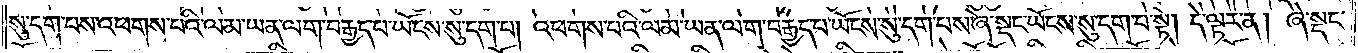སུ་དག་པས་འཕགས་པའི་ལམ་ཡན་ལག་བརྒྱད་པ་ཡོངས་སུ་དག་པ། འཕགས་པའི་ལམ་ཡན་ལག་བརྒྱད་པ་ཡོངས་སུ་དག་པས་ཞེ་སྡང་ཡོངས་སུ་དག་པ་སྟེ། དེ་ལྟར་ན། ཞེ་སྡང་
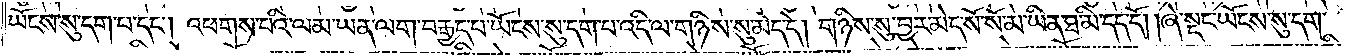ཡོངས་སུ་དག་པ་དང༌། འཕགས་པའི་ལམ་ཡན་ལག་བརྒྱད་པ་ཡོངས་སུ་དག་པ་འདི་ལ་གཉིས་སུ་མེད་དེ། གཉིས་སུ་བྱར་མེད་སོ་སོ་མ་ཡིན་ཐ་མི་དད་དོ། །ཞེ་སྡང་ཡོངས་སུ་དག་
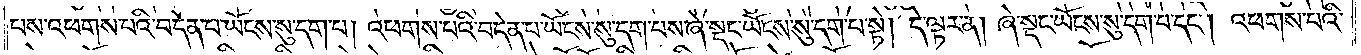པས་འཕགས་པའི་བདེན་པ་ཡོངས་སུ་དག་པ། འཕགས་པའི་བདེན་པ་ཡོངས་སུ་དག་པས་ཞེ་སྡང་ཡོངས་སུ་དག་པ་སྟེ། དེ་ལྟར་ན། ཞེ་སྡང་ཡོངས་སུ་དག་པ་དང༌། འཕགས་པའི་
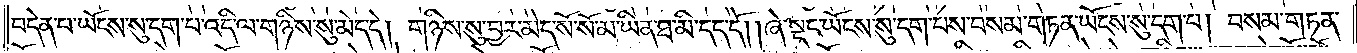བདེན་པ་ཡོངས་སུ་དག་པ་འདི་ལ་གཉིས་སུ་མེད་དེ། གཉིས་སུ་བྱར་མེད་སོ་སོ་མ་ཡིན་ཐ་མི་དད་དོ། །ཞེ་སྡང་ཡོངས་སུ་དག་པས་བསམ་གཏན་ཡོངས་སུ་དག་པ། བསམ་གཏན་
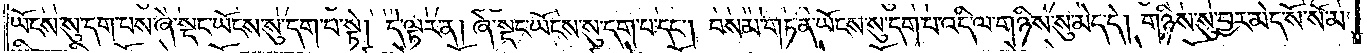ཡོངས་སུ་དག་པས་ཞེ་སྡང་ཡོངས་སུ་དག་པ་སྟེ། དེ་ལྟར་ན། ཞེ་སྡང་ཡོངས་སུ་དག་པ་དང༌། བསམ་གཏན་ཡོངས་སུ་དག་པ་འདི་ལ་གཉིས་སུ་མེད་དེ། གཉིས་སུ་བྱར་མེད་སོ་སོ་མ་
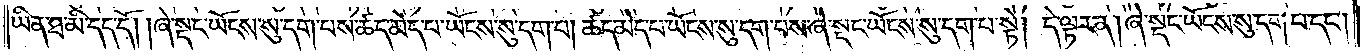ཡིན་ཐ་མི་དད་དོ། །ཞེ་སྡང་ཡོངས་སུ་དག་པས་ཚད་མེད་པ་ཡོངས་སུ་དག་པ། ཚད་མེད་པ་ཡོངས་སུ་དག་པས་ཞེ་སྡང་ཡོངས་སུ་དག་པ་སྟེ། དེ་ལྟར་ན། ཞེ་སྡང་ཡོངས་སུ་དག་པ་དང༌།
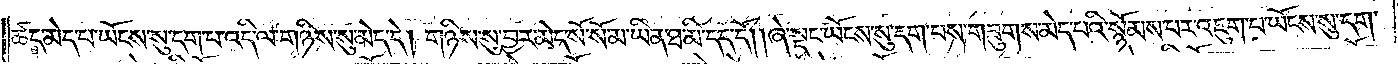ཚད་མེད་པ་ཡོངས་སུ་དག་པ་འདི་ལ་གཉིས་སུ་མེད་དེ། གཉིས་སུ་བྱར་མེད་སོ་སོ་མ་ཡིན་ཐ་མི་དད་དོ། །ཞེ་སྡང་ཡོངས་སུ་དག་པས་གཟུགས་མེད་པའི་སྙོམས་པར་འཇུག་པ་ཡོངས་སུ་དག་
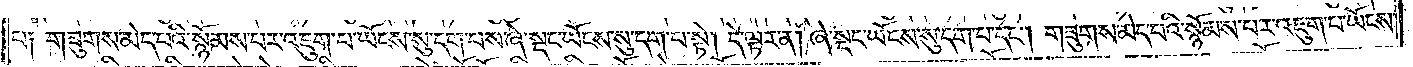པ༑ གཟུགས་མེད་པའི་སྙོམས་པར་འཇུག་པ་ཡོངས་སུ་དག་པས་ཞེ་སྡང་ཡོངས་སུ་དག་པ་སྟེ། དེ་ལྟར་ན། ཞེ་སྡང་ཡོངས་སུ་དག་པ་དང༌། གཟུགས་མེད་པའི་སྙོམས་པར་འཇུག་པ་ཡོངས་
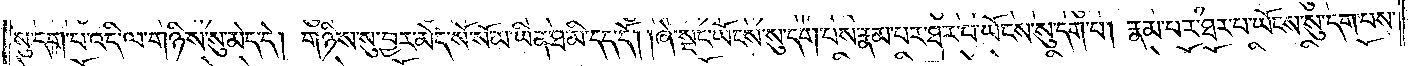སུ་དག་པ་འདི་ལ་གཉིས་སུ་མེད་དེ། གཉིས་སུ་བྱར་མེད་སོ་སོ་མ་ཡིན་ཐ་མི་དད་དོ། །ཞེ་སྡང་ཡོངས་སུ་དག་པས་རྣམ་པར་ཐར་པ་ཡོངས་སུ་དག་པ། རྣམ་པར་ཐར་པ་ཡོངས་སུ་དག་པས་
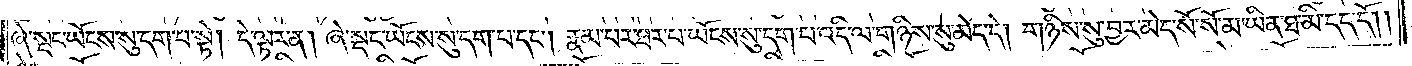ཞེ་སྡང་ཡོངས་སུ་དག་པ་སྟེ། དེ་ལྟར་ན། ཞེ་སྡང་ཡོངས་སུ་དག་པ་དང༌། རྣམ་པར་ཐར་པ་ཡོངས་སུ་དག་པ་འདི་ལ་གཉིས་སུ་མེད་དེ། གཉིས་སུ་བྱར་མེད་སོ་སོ་མ་ཡིན་ཐ་མི་དད་དོ། །
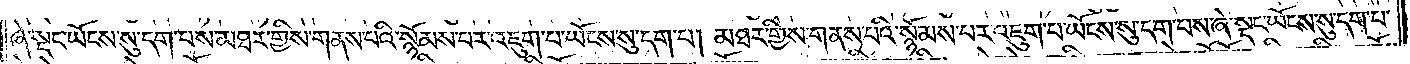ཞེ་སྡང་ཡོངས་སུ་དག་པས་མཐར་གྱིས་གནས་པའི་སྙོམས་པར་འཇུག་པ་ཡོངས་སུ་དག་པ། མཐར་གྱིས་གནས་པའི་སྙོམས་པར་འཇུག་པ་ཡོངས་སུ་དག་པས་ཞེ་སྡང་ཡོངས་སུ་དག་པ་
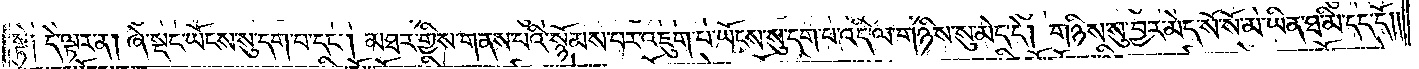སྟེ༑ དེ་ལྟར་ན། ཞེ་སྡང་ཡོངས་སུ་དག་པ་དང༌། མཐར་གྱིས་གནས་པའི་སྙོམས་པར་འཇུག་པ་ཡོངས་སུ་དག་པ་འདི་ལ་གཉིས་སུ་མེད་དེ། གཉིས་སུ་བྱར་མེད་སོ་སོ་མ་ཡིན་ཐ་མི་དད་དོ།
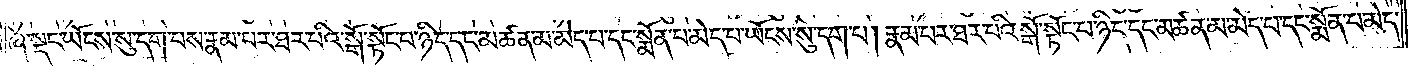ཞེ་སྡང་ཡོངས་སུ་དག་པས་རྣམ་པར་ཐར་པའི་སྒོ་སྟོང་པ་ཉིད་དང་མཚན་མ་མེད་པ་དང༌སྨོན་པ་མེད་པ་ཡོངས་སུ་དག་པ། རྣམ་པར་ཐར་པའི་སྒོ་སྟོང་པ་ཉིད་དང་མཚན་མ་མེད་པ་དང༌སྨོན་པ་མེད་
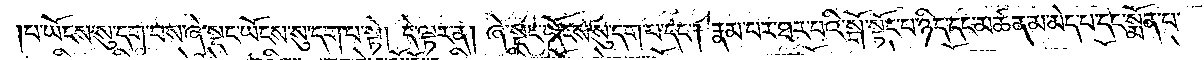པ་ཡོངས་སུ་དག་པས་ཞེ་སྡང་ཡོངས་སུ་དག་པ་སྟེ། དེ་ལྟར་ན། ཞེ་སྡང་ཡོངས་སུ་དག་པ་དང༌། རྣམ་པར་ཐར་པའི་སྒོ་སྟོང་པ་ཉིད་དང་མཚན་མ་མེད་པ་དང་སྨོན་པ་
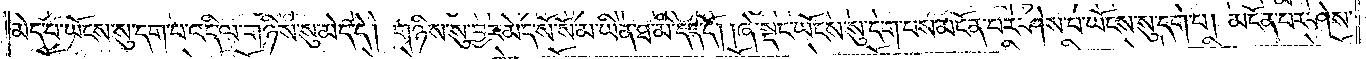མེད་པ་ཡོངས་སུ་དག་པ་འདི་ལ་གཉིས་སུ་མེད་དེ། གཉིས་སུ་བྱར་མེད་སོ་སོ་མ་ཡིན་ཐ་མི་དད་དོ། །ཞེ་སྡང་ཡོངས་སུ་དག་པས་མངོན་པར་ཤེས་པ་ཡོངས་སུ་དག་པ། མངོན་པར་ཤེས་
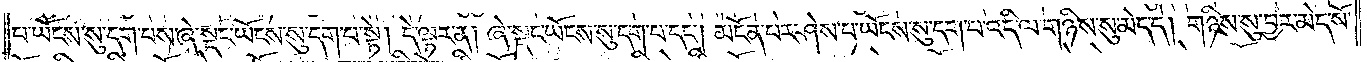པ་ཡོངས་སུ་དག་པས་ཞེ་སྡང་ཡོངས་སུ་དག་པ་སྟེ། དེ་ལྟར་ན། ཞེ་སྡང་ཡོངས་སུ་དག་པ་དང༌། མངོན་པར་ཤེས་པ་ཡོངས་སུ་དག་པ་འདི་ལ་གཉིས་སུ་མེད་དེ། གཉིས་སུ་བྱར་མེད་སོ་
